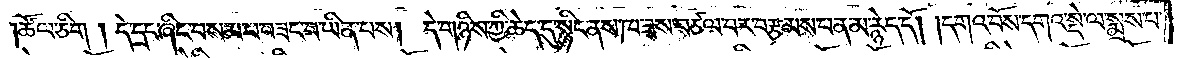ཚོལ་ཅིག །དེ་དྲང་ཞིང་བསམ་པ་བཟང་བ་ཡིན་པས། དེ་གཉིས་ཀྱི་ཆེད་དུ་སྙིང་ནས་ཁ་ཟས་བཙལ་བར་བརྩམས་པ་ན་མ་རྙེད་དོ། །དགའ་བོས་དགའ་སྡེ་ལ་སྨྲས་པ་
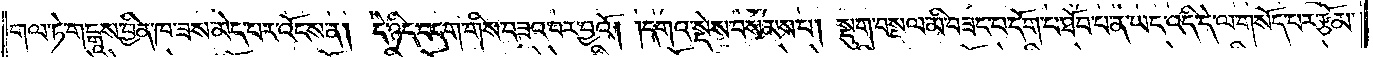གལ་ཏེ་གངྒཱས་བྱིན་ཁ་ཟས་མེད་པར་འོངས་ན། དེ་ཉིད་བདག་གིས་བཟའ་བར་བྱའོ། །དགའ་སྡེས་བསམས་པ། སྡུག་བསྔལ་མི་བཟང་པ་དོག་པ་ཐོབ་པ་ན་ཡང་འདི་དེ་ལ་གསོད་པར་རྩོམ་
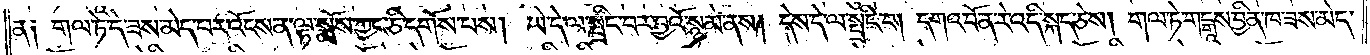ན༑ གལ་ཏེ་དེ་ཟས་མེད་པར་འོངས་ན་ལྟ་སྨོས་ཀྱང་ཅི་དགོས་པས། ཡེ་དེ་ལ་སྤྲིང་བར་བྱའོ་སྙམ་ནས། དེས་དེ་ལ་སྤྲིང་བ། དགའ་བོ་ན་རེ་འདི་སྐད་ཅེས། གལ་ཏེ་གངྒཱས་བྱིན་ཁ་ཟས་མེད་
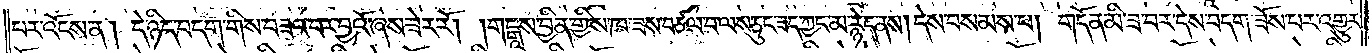པར་འོངས་ན། དེ་ཉིད་བདག་གིས་བཟའ་བར་བྱའོ་ཞེས་ཟེར་རོ། །གངྒཱས་བྱིན་གྱིས་ཁ་ཟས་བཙལ་བ་ལས་ཅུང་ཟད་ཀྱང་མ་རྙེད་ནས། དེས་བསམས་པ། གདོན་མི་ཟ་བར་དེས་བདག་ཟོས་པར་འགྱུར་
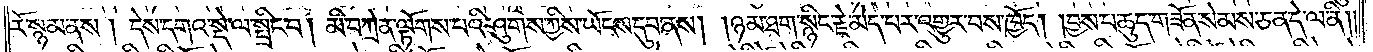རོ་སྙམ་ནས། དེས་དགའ་སྡེ་ལ་སྤྲིང་བ། མི་བཀྲེན་ལྟོགས་པའི་ཤུགས་ཀྱིས་ཡོངས་དུབ་ནས། །ཉམ་ཐག་སྙིང་རྗེ་མེད་པར་འགྱུར་བས་ཁྱོད། །བྱས་པ་ཆུད་གཟོན་སེམས་ཅན་དེ་ལ་ནི༎
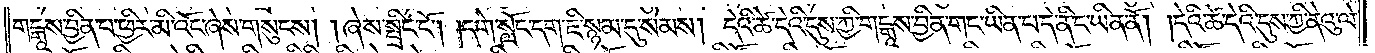གངྒཱས་བྱིན་པ་ཕྱིར་མི་འོང་ཞེས་གསུངས། །ཞེས་སྤྲིང་ངོ༌། །དགེ་སློང་དག་ཇི་སྙམ་དུ་སེམས། དེའི་ཚེ་དེའི་དུས་ཀྱི་གངྒཱས་བྱིན་གང་ཡིན་པ་དེ་ནི་ང་ཡིན་ནོ། །དེའི་ཚེ་དེའི་དུས་ཀྱི་ནེའུ་ལེ་
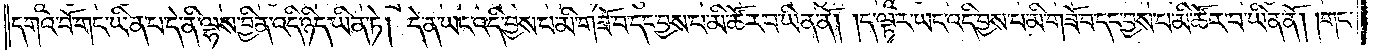དགའ་བོ་གང་ཡིན་པ་དེ་ནི་ལྷས་བྱིན་འདི་ཉིད་ཡིན་ཏེ། དེ་ན་ཡང་འདི་བྱས་པ་མི་གཟོ་བ་དང་བྱས་པ་མི་ཚོར་བ་ཡིན་ནོ། །ད་ལྟར་ཡང་འདི་བྱས་པ་མི་གཟོ་བ་དང་བྱས་པ་མི་ཚོར་བ་ཡིན་ནོ། །གང་
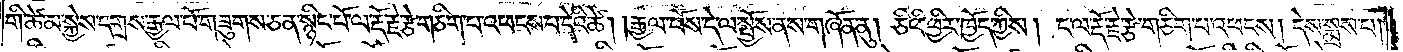གི་ཚེ་མ་སྐྱེས་དགྲས་རྒྱལ་པོ་གཟུགས་ཅན་སྙིང་པོ་ལ་རྡོ་རྗེ་རྩེ་གཅིག་པ་འཕངས་པ་དེའི་ཚེ། །རྒྱལ་པོས་དེ་ལ་སྤྱོས་ནས་གཞོན་ནུ། ཅིའི་ཕྱིར་ཁྱོད་ཀྱིས། ང་ལ་རྡོ་རྗེ་རྩེ་གཅིག་པ་འཕངས། དེས་སྨྲས་པ།
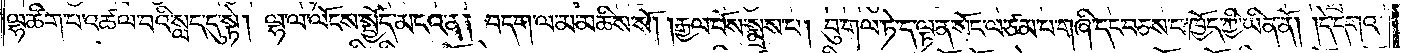ལྷ་ཚིག་པ་འཚལ་བའི་སླད་དུ་སྟེ། ལྷ་ལ་ལོངས་སྤྱོད་མངའ་ན། བདག་ལ་མ་མཆིས་སོ། །རྒྱལ་པོས་སྨྲས་པ། བུ་གལ་ཏེ་ད་ལྟ་ན་སོང་ལ་ཙམ་པ་གཞི་དང་བཅས་པ་ཁྱོད་ཀྱི་ཡིན་ནོ། །དེ་དགའ་
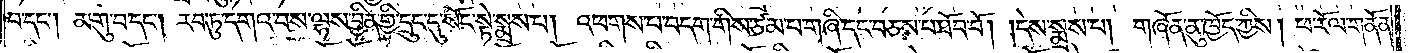བ་དང༌། མགུ་བ་དང༌། རབ་ཏུ་དགའ་བས་ལྷས་བྱིན་གྱི་དྲུང་དུ་སོང་སྟེ་སྨྲས་པ། འཕགས་པ་བདག་གིས་ཙམ་པ་གཞི་དང་བཅས་པ་ཐོབ་བོ། །དེས་སྨྲས་པ། གཞོན་ནུ་ཁྱོད་ཀྱིས། ཕ་རོལ་གནོན་
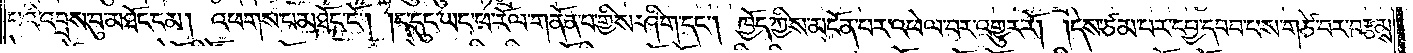པའི་འབྲས་བུ་མཐོང་ངམ། འཕགས་པ་མཐོང་ངོ༌། །ད་དུང་ཡང་ཕ་རོལ་གནོན་པ་གྱིས་ཤིག་དང༌། ཁྱོད་ཀྱིས་མངོན་པར་འཕེལ་བར་འགྱུར་རོ། །དེས་ཙམ་པར་དཔྱ་དབབ་པས་གཙེ་བར་བརྩམས་
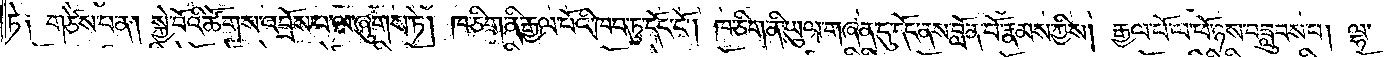ཏེ༑ གཙེས་པ་ན། སྐྱེ་བོའི་ཚོགས་འབྲོས་པ་ལ་ཞུགས་ཏེ། ཁ་ཅིག་ནི་རྒྱལ་པོའི་ཁབ་ཏུ་དོང་ངོ༌། ཁ་ཅིག་ནི་ཡུལ་གཞན་དུ་དོང་ནས་བློན་པོ་རྣམས་ཀྱིས། རྒྱལ་པོ་ལ་ཕོ་ཉས་བཟླུབས་པ། ལྷ་
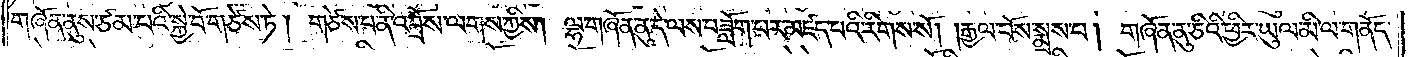གཞོན་ནུས་ཙམ་པའི་སྐྱེ་བོ་གཙེས་ཏེ། གཙེས་པ་ནི་འབྲོས་ལགས་ཀྱིས། ལྷ་གཞོན་ནུ་དེ་ལས་བཟློག་པར་མཛད་པའི་རིགས་སོ། །རྒྱལ་པོས་སྨྲས་པ། གཞོན་ནུ་ཅིའི་ཕྱིར་ཡུལ་མི་ལ་གནོད་
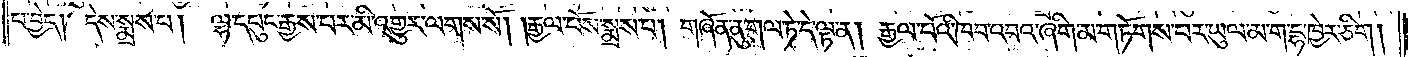པ་བྱེད། དེས་སྨྲས་པ། ལྷ་དཔུང་རྒྱས་པར་མི་འགྱུར་ལགས་སོ། །རྒྱལ་པོས་སྨྲས་པ། གཞོན་ནུ་གལ་ཏེ་དེ་ལྟ་ན། རྒྱལ་པོའི་ཁབ་པ་འབའ་ཞིག་མ་གཏོགས་པར་ཡུལ་མ་ག་དྷ་ཁྱེར་ཅིག །
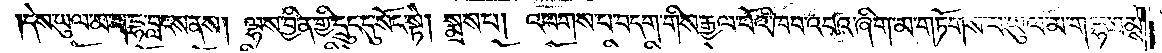དེས་ཡུལ་མ་ག་དྷ་བླངས་ནས། ལྷས་བྱིན་གྱི་དྲུང་དུ་སོང་སྟེ། སྨྲས་པ། འཕགས་པ་བདག་གིས་རྒྱལ་པོའི་ཁབ་འབའ་ཞིག་མ་གཏོགས་པ་ཡུལ་མ་ག་དྷ་ཐམས་
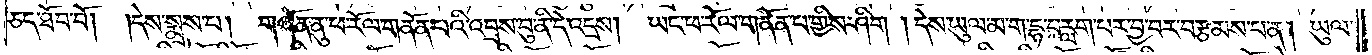ཅད་ཐོང་བོ། །དེས་སྨྲས་པ། གཞོན་ནུ་ཕ་རོལ་གནོན་པའི་འབྲས་བུ་ནི་དེ་འདྲས། ཡང་ཕ་རོལ་གནོན་པ་གྱིས་ཤིག །དེས་ཡུལ་མ་ག་དྷ་བརླག་པར་བྱ་བར་བརྩམས་པ་ན། ཡུལ་
